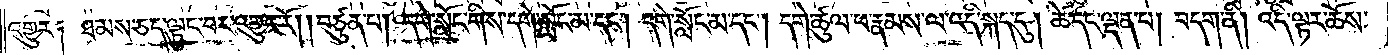འགྱུར༑ ཐམས་ཅད་ལྟུང་བར་འགྱུར་རོ། །བཙུན་པ། དགེ་སློང་གིས་དགེ་སློང་མ་དང༌། དགེ་སློང་མ་དང༌། དགེ་ཚུལ་ཕ་རྣམས་ལ་འདི་སྐད་དུ། ཚེ་དང་ལྡན་པ། བདག་ནི། འདི་ལྟར་ཆོས་
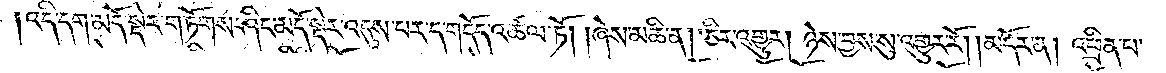འདི་དག་མདོ་སྡེར་གཏོགས་ཤིང་མདོ་སྡེར་འདུས་པར་ད་གདོད་འཚལ་ཏོ། །ཞེས་མཆི་ན། །ཅིར་འགྱུར། ཉེས་བྱས་སུ་འགྱུར་རོ།    །མདོར་ན། འཕྲིན་པ་
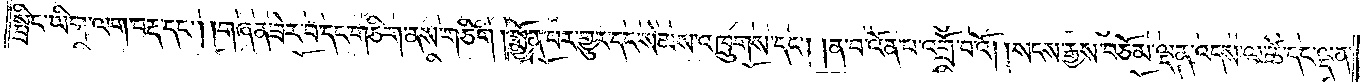སྤྲིང་ཡིག་ལག་བརྡ་དང༌། །གཞན་ཟེར་བ་དང་གཅིག་ནས་གཅིག །སྨྱོན་བར་གྱུར་དང་སེམས་འཁྲུགས་དང༌། །ན་པ་འོན་པ་འགྲོ་བ་འོ། །སངས་རྒྱས་བཅོམ་ལྡན་འདས་ལ་ཚེ་དང་ལྡན་
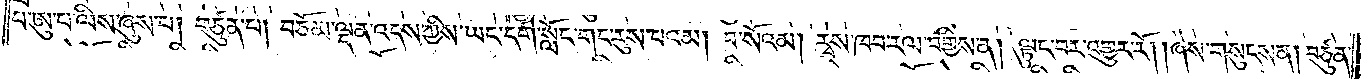པ་ཨུ་པ་ལིས་ཞུས་པ། བཙུན་པ། བཅོམ་ལྡན་འདས་ཀྱིས་ཡང་དགེ་སློང་གང་རུས་པའམ། བ་སོའམ། རྭས་ཁབ་རལ་བགྱིས་ན། ལྟུང་བར་འགྱུར་རོ། །ཞེས་གསུངས་ན། བཙུན་
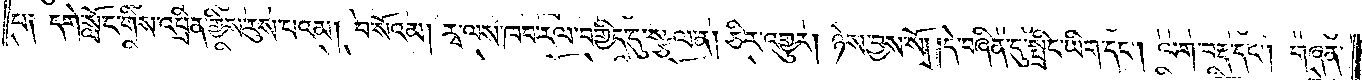པ༑ དགེ་སློང་གིས་འཕྲིན་གྱིས་རུས་པའམ། བ་སོའམ། རྭ་ལས་ཁབ་རལ་བགྱིད་དུ་སྩལ་ན། ཅིར་འགྱུར། ཉེས་བྱས་སོ། །དེ་བཞིན་དུ་སྤྲིང་ཡིག་དང༌། ལག་བརྡ་དང༌། གཞན་
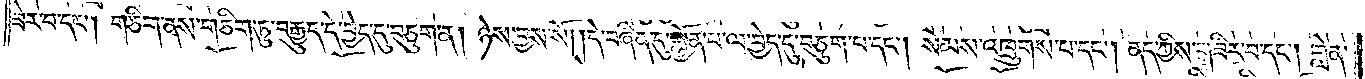ཟེར་བ་དང༌། གཅིག་ནས་གཅིག་ཏུ་བརྒྱུད་དེ་བྱེད་དུ་བཅུག་ན། ཉེས་བྱས་སོ། །དེ་བཞིན་དུ་སྨྱོན་པ་ལ་བྱེད་དུ་བཅུག་པ་དང༌། སེམས་འཁྲུགས་པ་དང༌། ནད་ཀྱིས་གཟིར་བ་དང༌། གླེན་
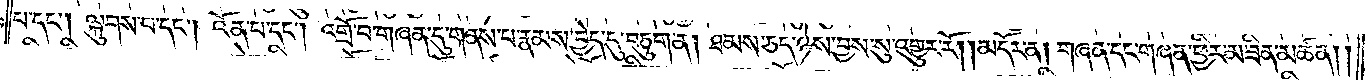པ་དང༌། ལྐུགས་པ་དང༌། འོན་པ་དང༌། འགྲོ་བ་གཞན་དུ་གནས་པ་རྣམས་བྱེད་དུ་བཅུག་ན། ཐམས་ཅད་ཉེས་བྱས་སུ་འགྱུར་རོ། །མདོར་ན། གཞན་དང་གཞན་ཕྱིར་མ་ཟིན་མཚན། །
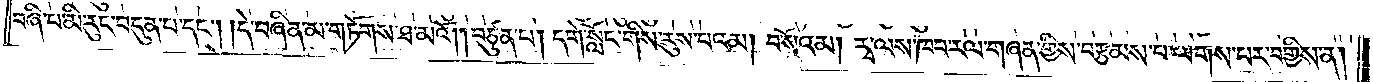བཞི་པ་མི་རུང་བདུན་པ་དང༌། །དེ་བཞིན་མ་གཏོགས་ཐ་མའོ། །བཙུན་པ། དགེ་སློང་གིས་རུས་པའམ། བ་སོའམ། རྭ་ལས་ཁབ་རལ་གཞན་གྱིས་བརྩམས་པ་ལགས་པར་བགྱིས་ན།
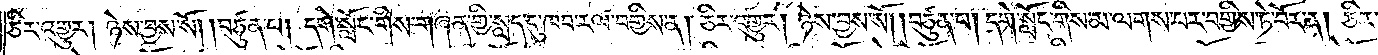ཅིར་འགྱུར། ཉེས་བྱས་སོ། །བཙུན་པ། དགེ་སློང་གིས་གཞན་གྱི་སླད་དུ་ཁབ་རལ་བགྱིས་ན། ཅིར་འགྱུར། ཉེས་བྱས་སོ། །བཙུན་པ། དགེ་སློང་གིས་མ་ལགས་པར་བགྱིས་ཏེ་བོར་ན། ཅིར་
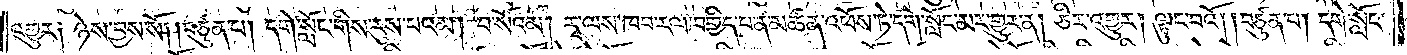འགྱུར༑ ཉེས་བྱས་སོ། །བཙུན་པ། དགེ་སློང་གིས་རུས་པའམ། བ་སོའམ། རྭ་ལས་ཁབ་རལ་བགྱིད་པ་ན་མཚན་འཕོས་ཏེ་དགེ་སློང་མར་གྱུར་ན། ཅིར་འགྱུར། ལྟུང་བའོ། །བཙུན་པ། དགེ་སློང་
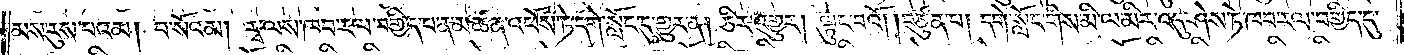མས་རུས་པའམ། བ་སོའམ། རྭ་ལས་ཁབ་རལ་བགྱིད་པ་ན་མཚན་འཕོས་ཏེ་དགེ་སློང་དུ་གྱུར་ན། ཅིར་འགྱུར། ལྟུང་བའོ། །བཙུན་པ། དགེ་སློང་གིས་མི་ལ་མིར་འདུ་ཤེས་ཏེ་ཁབ་རལ་བགྱིད་དུ་
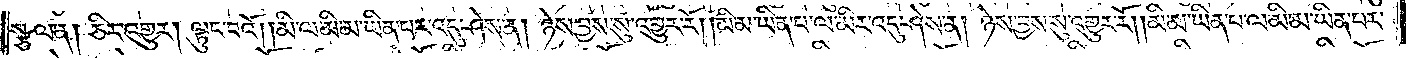སྩལ་ན། ཅིར་འགྱུར། ལྟུང་བའོ། །མི་ལ་མི་མ་ཡིན་པར་འདུ་ཤེས་ན། ཉེས་བྱས་སུ་འགྱུར་རོ། །མི་མ་ཡིན་པ་ལ་མིར་འདུ་ཤེས་ན། ཉེས་བྱས་སུ་འགྱུར་རོ། །མི་མ་ཡིན་པ་ལ་མི་མ་ཡིན་པར་
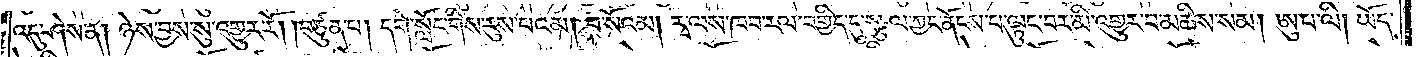འདུ་ཤེས་ན། ཉེས་བྱས་སུ་འགྱུར་རོ། །བཙུན་པ། དགེ་སློང་གིས་རུས་པའམ། བ་སོའམ། རྭ་ལས་ཁབ་རལ་བགྱིད་དུ་སྩལ་ཀྱང་ནོངས་པ་ལྟུང་བར་མི་འགྱུར་བ་མཆིས་སམ། ཨུ་པ་ལི། ཡོད་
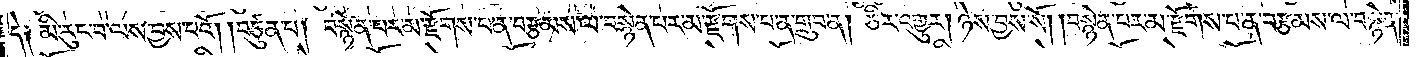དེ༑ མི་རུང་བ་ལས་བྱས་པའོ། །བཙུན་པ། བསྙེན་པར་མ་རྫོགས་པ་ན་བརྩམས་ལ་བསྙེན་པར་མ་རྫོགས་པ་ན་གྲུབ་ན། ཅིར་འགྱུར། ཉེས་བྱས་སོ། །བསྙེན་པར་མ་རྫོགས་པ་ན་བརྩམས་ལ་བསྙེན་
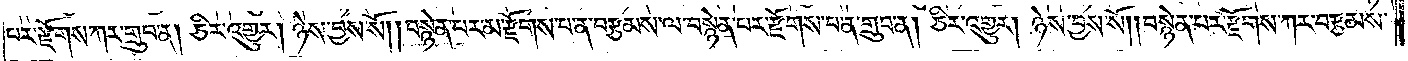པར་རྫོགས་ཀར་གྲུབ་ན། ཅིར་འགྱུར། ཉེས་བྱས་སོ། །བསྙེན་པར་མ་རྫོགས་པ་ན་བརྩམས་ལ་བསྙེན་པར་རྫོགས་པ་ན་གྲུབ་ན། ཅིར་འགྱུར། ཉེས་བྱས་སོ། །བསྙེན་པར་རྫོགས་ཀར་བརྩམས་
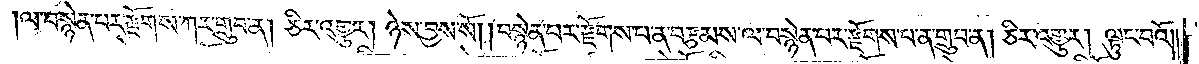།ལ་བསྙེན་པར་རྫོགས་ཀར་གྲུབ་ན། ཅིར་འགྱུར། ཉེས་བྱས་སོ། །བསྙེན་པར་རྫོགས་པ་ན་བརྩམས་ལ་བསྙེན་པར་རྫོགས་པ་ན་གྲུབ་ན། ཅིར་འགྱུར། ལྟུང་བའོ༎
